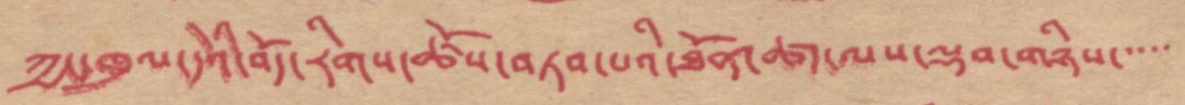ཀྱང་ཁུལ་དེའི་བོད་རིགས་ཚོས་བཏབ་པའི་ཐོན་ཚད་ལས་ལྡབ་གཉིས་་་་
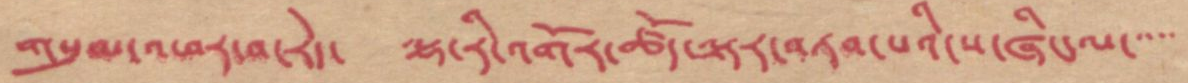གསུམ་འཕར་བ་རེད་ ལྷ་རི་འགོར་ཚོད་ལྟར་བཏབ་པའི་ས་ཞིང་ལ་་་་
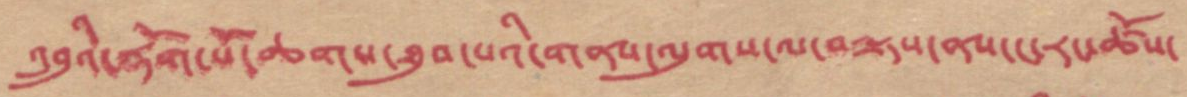འབྲུའི་རྡོག་པོ་ཆགས་ཐུབ་པའི་གནས་ལུགས་ལ་བལྟས་ནས་དང་རང་ཚོས་
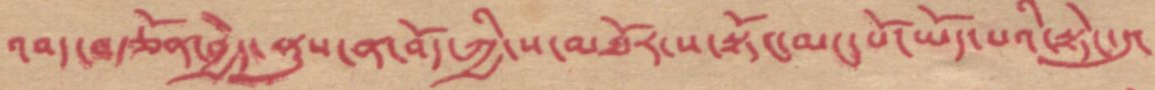འབད་བརྩོན་བྱེད་ནུས་ན་བོད་ཀྱི་ས་མཐོར་ས་སྟོང་མང་པོ་ཡོད་པའི་སྟེང་དུ་
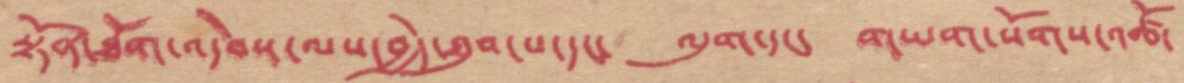སྟོན་ཐོག་འདེབས་ལས་བྱེད་ཐུབ་པ་དང་ ལུག་དང་ གཡག་སོགས་འཚོ་
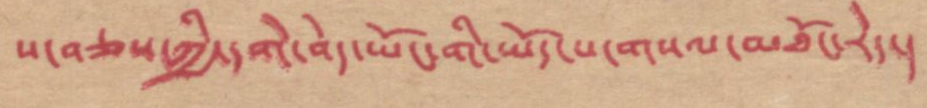ས་བཅས་ཀྱི་དགེ་བེད་ཡོང་གི་ཡོད་བདག་གསལ་མཐོང་རེད།
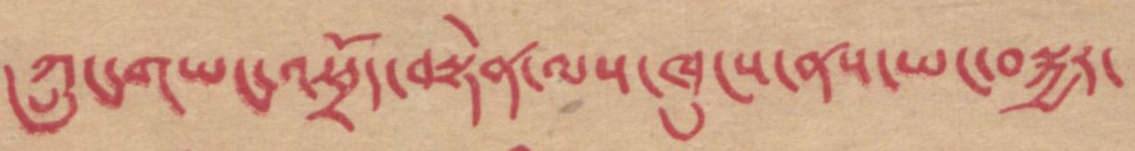ཀྲུན་གཡང་འཕྲོད་བསྟེན་ལས་ཁུངས་ནས་ཡང་བསྐྱར་
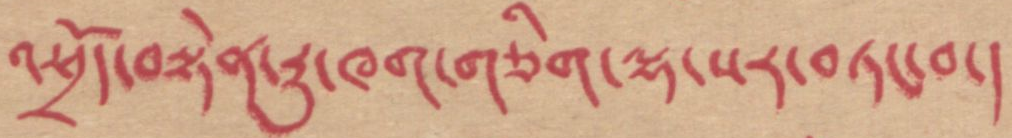འཕྲོད་བསྟེན་རྒྱུ་ཁག་གཅིག་ལྷ་སར་བཏང་བ།
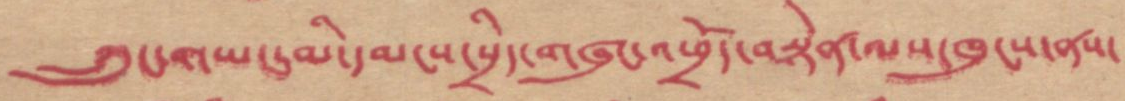ཀྲུང་གཡང་མི་དམངས་སྲིད་གཞུང་འཕྲོད་བསྟེན་ལས་ཁུངས་ནས་
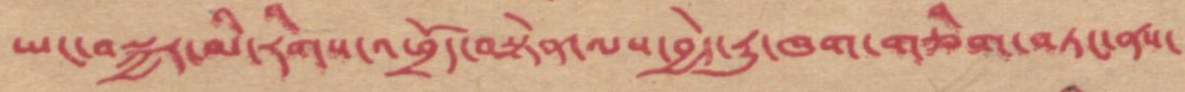ཡང་བསྐྱར་མི་རིགས་འཕྲོད་བསྟེན་ལས་བྱེད་རྒྱུ་ཁག་གཅིག་བཏང་ནས་
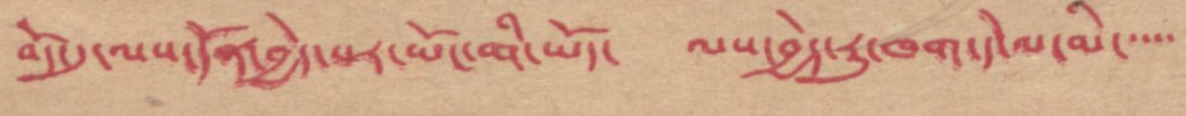བོད་དུ་ལས་དོན་བྱེད་པར་ཡོང་གི་ཡོད་ ལས་བྱེད་རྒྱུ་ཁག་དེ་ལ་མི་་་་་
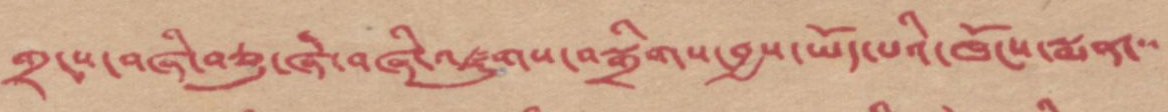གྲངས་བཞི་བཅུ་ཞེ་བཞི་འཛུགས་བསྒྲིགས་བྱས་ཡོད་པའི་ཁོངས་སྨན་་་
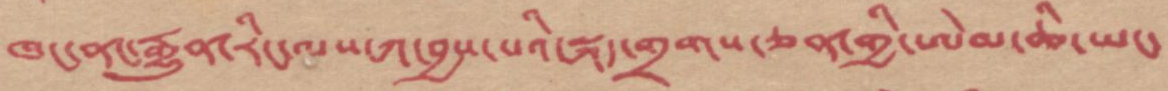ཁང་ནང་རྒྱུན་རིང་ལས་ཀ་བྱས་པའི་སྐད་གྲགས་ཅན་གྱི་ཨེམ་ཆི་ཡང་
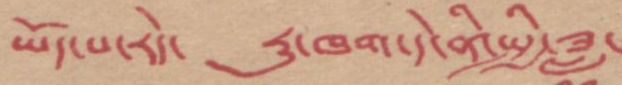ཡོད་པ་རེད་ རྒྱུ་ཁག་དེ་ནི་སྤྱི་ཟླ་
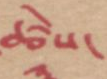ཚེས་
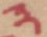༣
